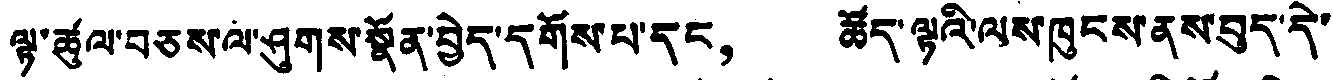ལྟ་ཚུལ་བཅས་ལ་ཤུགས་སྣོན་བྱེད་དགོས་པ་དང， ཚོད་ལྟའི་ལས་ཁུངས་ནས་བུད་དེ་
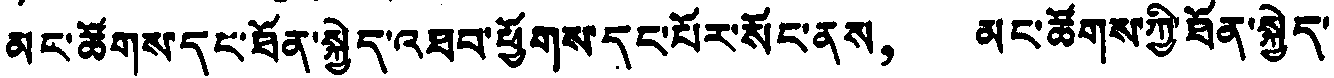མང་ཚོགས་དང་ཐོན་སྐྱེད་འཐབ་ཕྱོགས་དང་པོར་སོང་ནས， མང་ཚོགས་ཀྱི་ཐོན་སྐྱེད་
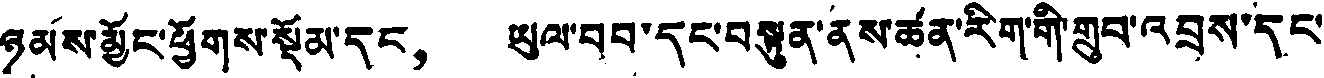ཉམས་མྱོང་ཕྱོགས་སྡོམ་དང， ཡུལ་བབ་དང་བསྟུན་ནས་ཚན་རིག་གི་གྲུབ་འབྲས་དང་
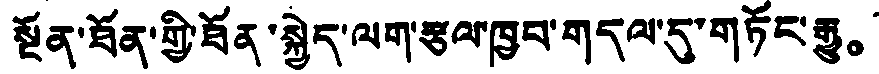སྔོན་ཐོན་གྱི་ཐོན་སྐྱེད་ལག་རྩལ་ཁྱབ་གདལ་དུ་གཏོང་རྒྱུ。
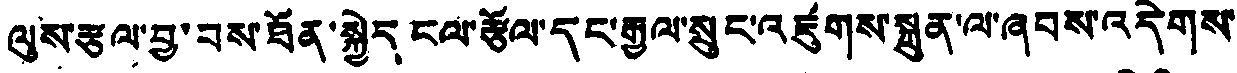ལུས་རྩལ་བྱ་བས་ཐོན་སྐྱེད ངལ་རྩོལ་དང་རྒྱལ་སྲུང་འཛུགས་སྐྲུན་ལ་ཞབས་འདེགས་
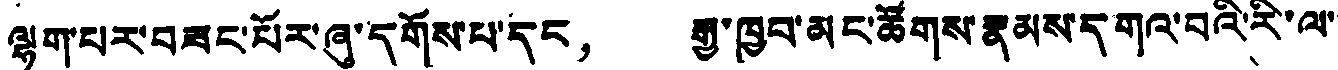ལྷག་པར་བཟང་པོར་ཞུ་དགོས་པ་དང， རྒྱ་ཁྱབ་མང་ཚོགས་རྣམས་དགའ་བའི་རི་ལ་
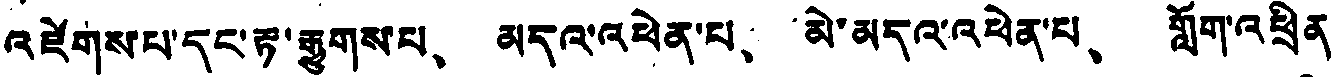འཛེགས་པ་དང་རྟ་རྒྱུགས་པ、 མདའ་འཕེན་པ、 མེ་མདའ་འཕེན་པ、 གློག་འཕྲིན
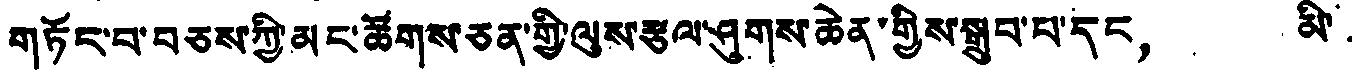གཏོང་བ་བཅས་ཀྱི་མང་ཚོགས་ཅན་གྱི་ལུས་རྩལ་ཤུགས་ཆེན་གྱིས་སྒྲུབ་པ་དང， མི་
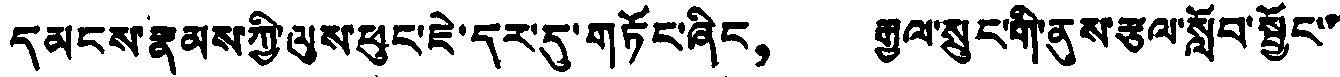དམངས་རྣམས་ཀྱི་ལུས་ཕུང་ཇེ་དར་དུ་གཏོང་ཞིང， རྒྱལ་སྲུང་གི་ནུས་རྩལ་སློབ་སྦྱོང་་
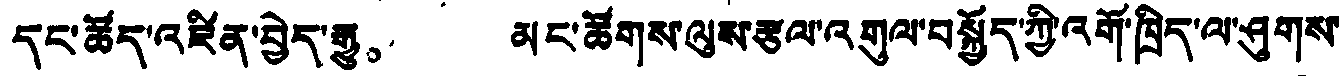དང་ཚོད་འཛིན་བྱེད་རྒྱུ。 མང་ཚོགས་ལུས་རྩལ་འགུལ་བསྐྱོད་ཀྱི་འགོ་ཁྲིད་ལ་ཤུགས་
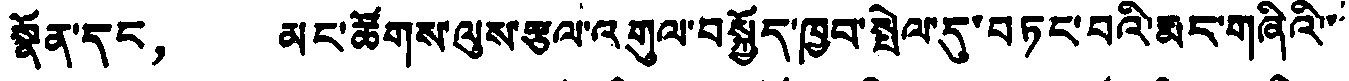སྣོན་དང， མང་ཚོགས་ལུས་རྩལ་འགུལ་བསྐྱོད་ཁྱབ་སྤེལ་དུ་བཏང་བའི་རྨང་གཞིའི་་་
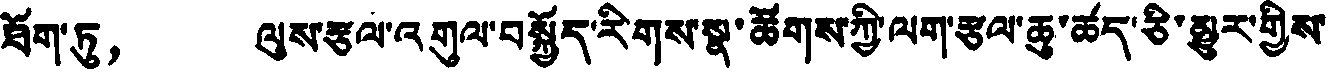ཐོག་ཏུ， ལུས་རྩལ་འགུལ་བསྐྱོད་རིགས་སྣ་ཚོགས་ཀྱི་ལག་རྩལ་ཆུ་ཚད་ཅི་མྱུར་གྱིས་
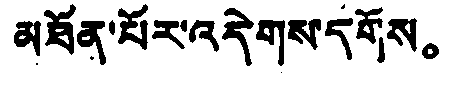མཐོན་པོར་འདེགས་དགོས。
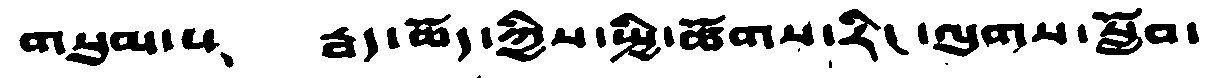གསུམ་པ、 རྦད་ཆོད་ཀྱིས་སྤྱི་ཚོགས་རི་ལུགས་སློབ་
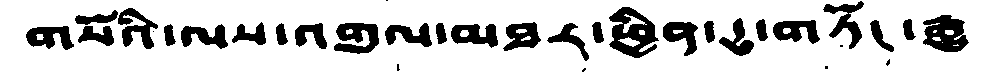གསོའི་ལས་འགྲལ་མཐར་ཕྱིན་ཏུ་གཏོང་རྒྱུ
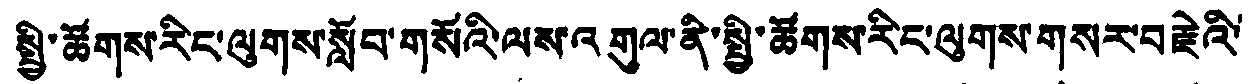སྤྱི་ཚོགས་རིང་ལུགས་སློབ་གསོའི་ལས་འགུལ་ནི་སྤྱི་ཚོགས་རིང་ལུགས་གསར་བརྗེའི་
